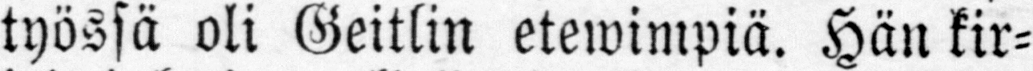työssä oli Geitlin etewimpiä. Hän kir-
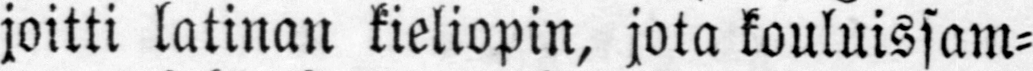joitti latinan kieliopin, jota kouluissam-
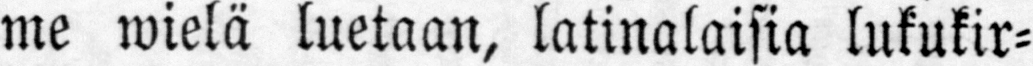me wielä luetaan, latinalaisia lukukir-
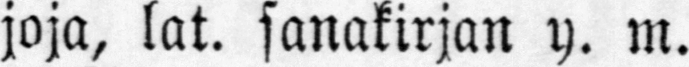joja, lat. sanakirjan y. m.
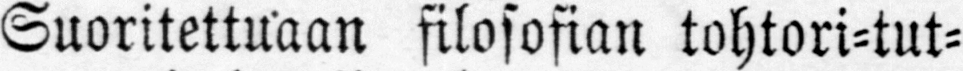Suoritettuaan filosofian tohtori-tut-
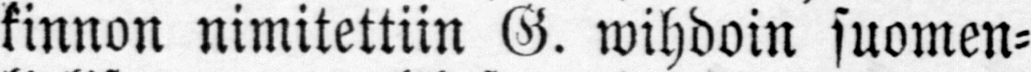kinnon nimitettiin G. wihdoin suomen-
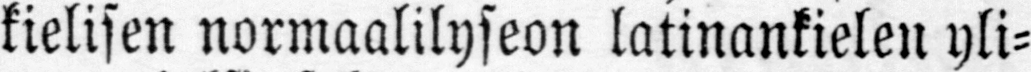kielisen normaalilyseon latinankielen yli-
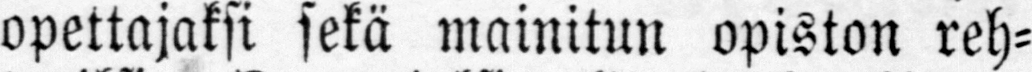opettajaksi sekä mainitun opiston reh-
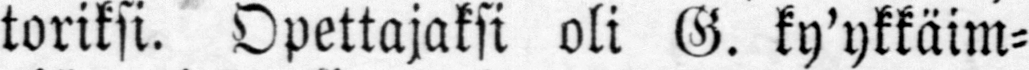toriksi. Opettajaksi oli G. ky'ykkäim-
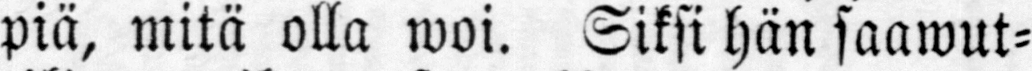piä, mitä olla woi. Siksi hän saawut-
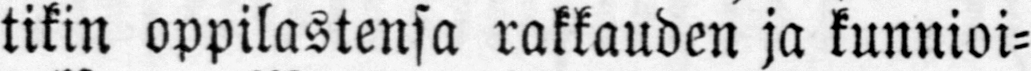tikin oppilastensa rakkauden ja kunnioi-
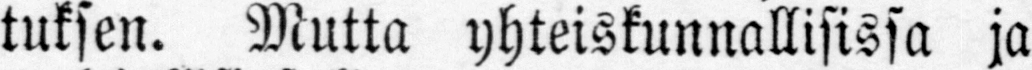tuksen. Mutta yhteiskunnallisissa ja
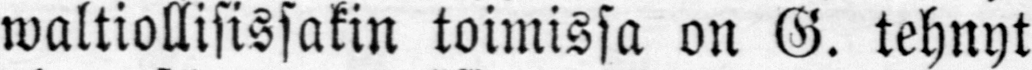waltiollisissakin toimissa on G. tehnyt
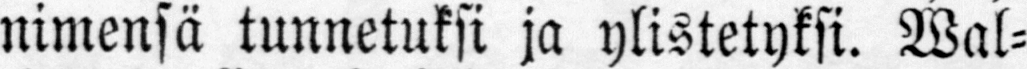nimensä tunnetuksi ja ylistetyksi. Wal-
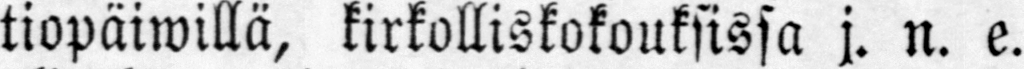tiopäiwillä, kirkolliskokouksissa j. n. e.
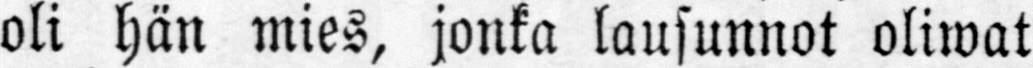oli hän mies, jonka lausunnot oliwat
